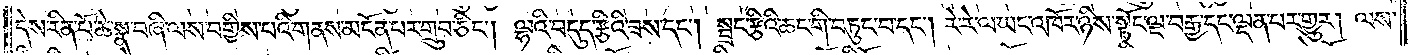དེས་རིན་པོ་ཆེ་སྣ་བཞི་ལས་བགྱིས་པའི་གནས་མངོན་པར་གྲུབ་ཅིང༌། ལྷའི་བདུད་རྩིའི་ཟས་དང༌། སྦྲང་རྩིའི་ཆང་གི་བཏུང་བ་དང༌། རེ་རེ་ལ་ཡང་འཁོར་ཉིས་སྟོང་ལྔ་བརྒྱ་དང་ལྡན་པར་གྱུར། ལས་
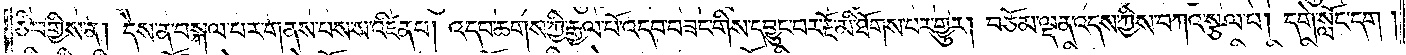ཅི་བགྱིས་ན། དེས་ན་བསྐལ་པར་གནས་པས་ས་འཛིན་པ། འདབ་ཆགས་ཀྱི་རྒྱལ་པོ་འདབ་བཟང་གིས་དབྱུང་བར་རྔོ་མི་ཐོགས་པར་གྱུར། བཅོམ་ལྡན་འདས་ཀྱིས་བཀའ་སྩལ་པ། དགེ་སློང་དག །
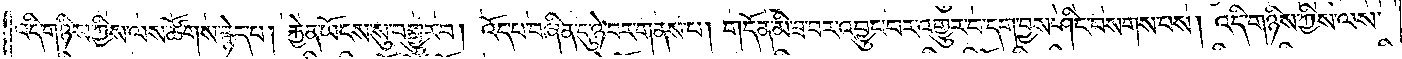འདི་གཉིས་ཀྱིས་ལས་ཚོགས་རྙེད་པ། རྐྱེན་ཡོངས་སུ་བསྒྱུར་བ། འོད་པ་བཞིན་དུ་ཉེ་བར་གནས་པ། གདོན་མི་ཟ་བར་འབྱུང་བར་འགྱུར་བ་དག་བྱས་ཤིང་བསགས་པས། འདི་གཉིས་ཀྱིས་ལས་
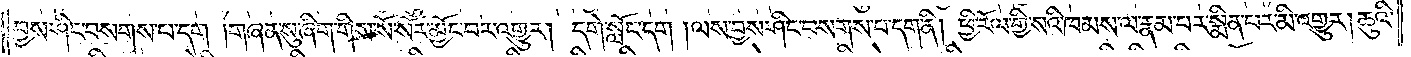བྱས་ཤིང་བསགས་པ་དག །གཞན་སུ་ཞིག་གིས་སོ་སོར་མྱོང་བར་འགྱུར། དགེ་སློང་དག །ལས་བྱས་ཤིང་བསགས་པ་དག་ནི། ཕྱི་རོལ་གྱི་སའི་ཁམས་ལ་རྣམ་པར་སྨིན་པར་མི་འགྱུར། ཆུའི་
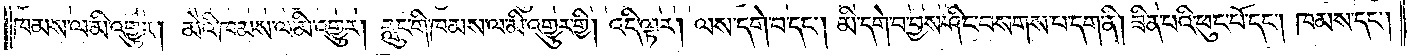ཁམས་ལ་མི་འགྱུར། མེའི་ཁམས་ལ་མི་འགྱུར། རླུང་གི་ཁམས་ལ་མི་འགྱུར་གྱི། འདི་ལྟར། ལས་དགེ་བ་དང༌། མི་དགེ་བ་བྱས་ཤིང་བསགས་པ་དག་ནི། ཟིན་པའི་ཕུང་པོ་དང༌། ཁམས་དང༌།
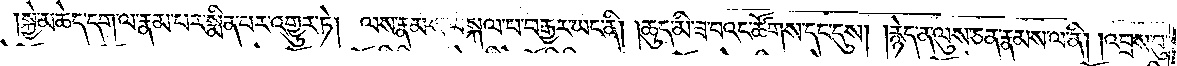།སྐྱེ་མཆེད་དག་ལ་རྣམ་པར་སྨིན་པར་འགྱུར་ཏེ། ལས་རྣམས་བསྐལ་པ་བརྒྱར་ཡང་ནི། །ཆུད་མི་ཟ་བའང་ཚོགས་དང་དུས། །རྙེད་ན་ལུས་ཅན་རྣམས་ལ་ནི། །འབྲས་བུ་
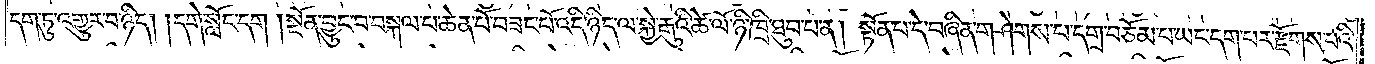དག་ཏུ་འགྱུར་བ་ཉིད། །དགེ་སློང་དག །སྔོན་བྱུང་བ་བསྐལ་པ་ཆེན་པོ་བཟང་པོ་འདི་ཉིད་ལ་སྐྱེ་རྒུའི་ཚེ་ལོ་ཉི་ཁྲི་ཐུབ་པ་ན། སྟོན་པ་དེ་བཞིན་གཤེགས་པ་དགྲ་བཅོམ་པ་ཡང་དག་པར་རྫོགས་པའི་
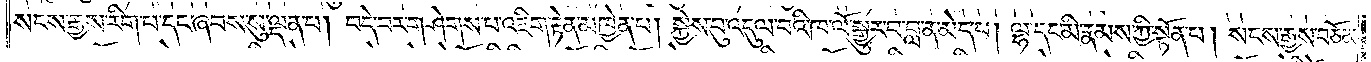སངས་རྒྱས་རིག་པ་དང་ཞབས་སུ་ལྡན་པ། བདེ་བར་གཤེགས་པ་འཇིག་རྟེན་མཁྱེན་པ། སྐྱེས་བུ་འདུལ་བའི་ཁ་ལོ་སྒྱུར་བ་བླ་ན་མེད་པ། ལྷ་དང་མི་རྣམས་ཀྱི་སྟོན་པ། སངས་རྒྱས་བཅོམ་
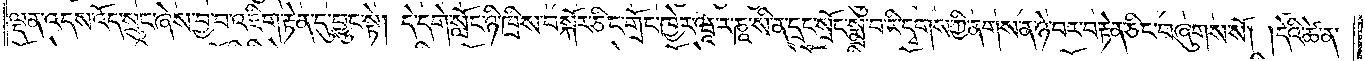ལྡན་འདས་འོད་སྲུང་ཞེས་བྱ་བ་འཇིག་རྟེན་དུ་བྱུང་སྟེ། དེ་དགེ་སློང་ཉི་ཁྲིས་བསྐོར་ཅིང་གྲོང་ཁྱེར་ཝཱ་ར་ཎཱ་སི་ན་དྲང་སྲོང་སྨྲ་བ་རི་དྭགས་ཀྱི་ནགས་ན་ཉེ་བར་བརྟེན་ཅིང་བཞུགས་སོ། །དེའི་ཚེ་ན་
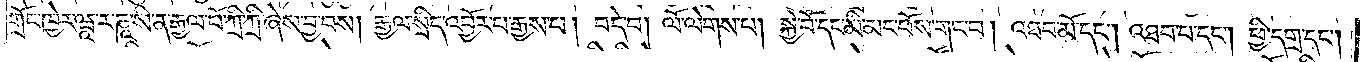གྲོང་ཁྱེར་ཝཱ་ར་ཎཱ་སི་ན་རྒྱལ་པོ་ཀྲི་ཀྲི་ཞེས་བྱ་བས། རྒྱལ་སྲིད་འབྱོར་བ་རྒྱས་པ། བདེ་བ། ལོ་ལེགས་པ། སྐྱེ་བོ་དང་མི་མང་པོས་གང་བ། འཐབ་མོ་དང༌། འཐབ་པ་དང༌། ཕྱི་དགྲ་དང༌།
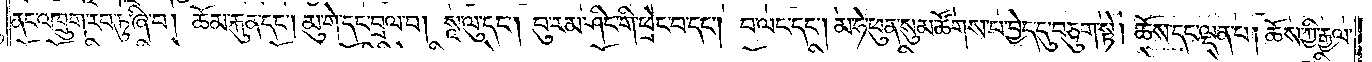ནང་འཁྲུག་རབ་ཏུ་ཞི་བ། ཆོམ་རྐུན་དང༌། མུ་གེ་དང་བྲལ་བ། སཱ་ལུ་དང༌། བུ་རམ་ཤིང་གི་ཕྲེང་བ་དང༌། བ་ལང་དང༌། མ་ཧེ་ཕུན་སུམ་ཚོགས་པ་བྱེད་དུ་བཅུག་སྟེ། ཆོས་དང་ལྡན་པ། ཆོས་ཀྱི་རྒྱལ་
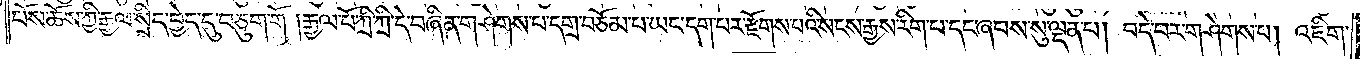པོས་ཆོས་ཀྱི་རྒྱལ་སྲིད་བྱེད་དུ་བཅུག་གོ །རྒྱལ་པོ་ཀྲི་ཀྲི་དེ་བཞིན་གཤེགས་པ་དགྲ་བཅོམ་པ་ཡང་དག་པར་རྫོགས་པའི་སངས་རྒྱས་རིག་པ་དང་ཞབས་སུ་ལྡན་པ། བདེ་བར་གཤེགས་པ། འཇིག་
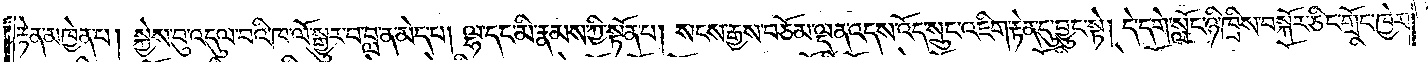རྟེན་མཁྱེན་པ། སྐྱེས་བུ་འདུལ་བའི་ཁ་ལོ་སྒྱུར་བ་བླ་ན་མེད་པ། ལྷ་དང་མི་རྣམས་ཀྱི་སྟོན་པ། སངས་རྒྱས་བཅོམ་ལྡན་འདས་འོད་སྲུང་འཇིག་རྟེན་དུ་བྱུང་སྟེ། དེ་དགེ་སློང་ཉི་ཁྲིས་བསྐོར་ཅིང་གྲོང་ཁྱེར་
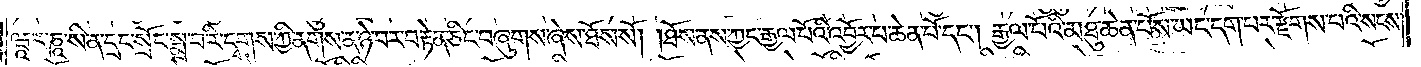ཝཱ་ར་ཎཱ་སི་ན་དྲང་སྲོང་སྨྲ་བ་རི་དྭགས་ཀྱི་ནགས་ན་ཉེ་བར་བརྟེན་ཅིང་བཞུགས་ཞེས་ཐོས་སོ། །ཐོས་ནས་ཀྱང་རྒྱལ་པོའི་འབྱོར་པ་ཆེན་པོ་དང༌། རྒྱལ་པོའི་མཐུ་ཆེན་པོས་ཡང་དག་པར་རྫོགས་པའི་སངས་
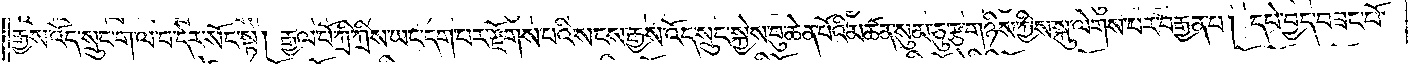རྒྱས་འོད་སྲུང་ག་ལ་བ་དེར་སོང་སྟེ། རྒྱལ་པོ་ཀྲི་ཀྲིས་ཡང་དག་པར་རྫོགས་པའི་སངས་རྒྱས་འོད་སྲུང་སྐྱེས་བུ་ཆེན་པོའི་མཚན་སུམ་ཅུ་རྩ་གཉིས་ཀྱིས་སྐུ་ལེགས་པར་བརྒྱན་པ། དཔེ་བྱད་བཟང་པོ་
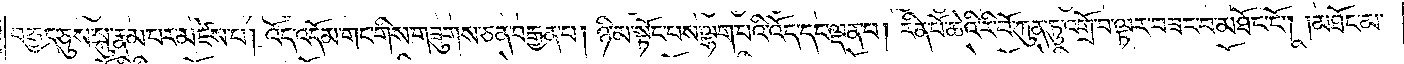བརྒྱད་ཅུས་སྐུ་རྣམ་པར་མཛེས་པ། འོད་འདོམ་གང་གིས་གཟུགས་ཅན་བརྒྱན་པ། ཉི་མ་སྟོང་པས་ལྷག་པའི་འོད་དང་ལྡན་པ། རིན་པོ་ཆེའི་རི་བོ་ཀུན་ཏུ་འགྲོ་བ་ལྟར་བཟང་བ་མཐོང་ངོ༌། །མཐོང་མ་
